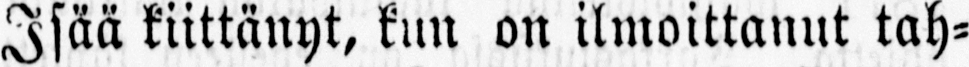Isää kiittänyt, kun on ilmoittanut tah-
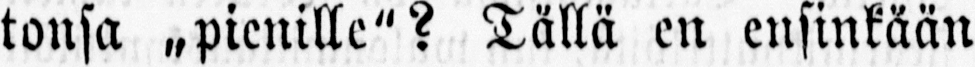tonsa ˶pienille"? Tällä en ensinkään
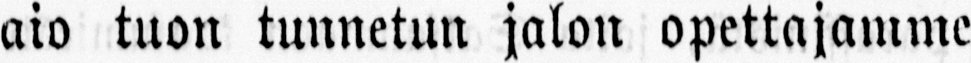aio tuon tunnetun jalon opettajamme
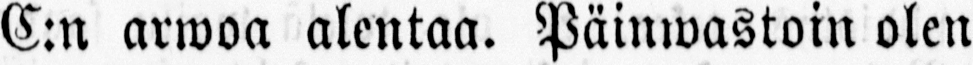C:n arwoa alentaa. Päinwastoin olen
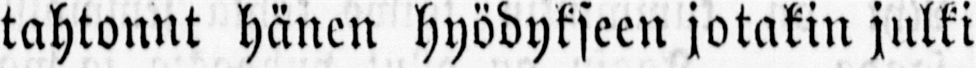tahtonnt hänen hyödykseen jotakin julki
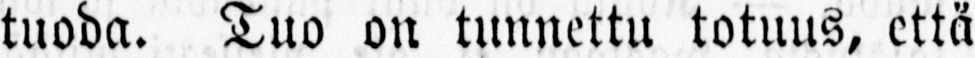tuoda. Tuo on tunnettu totuus, että
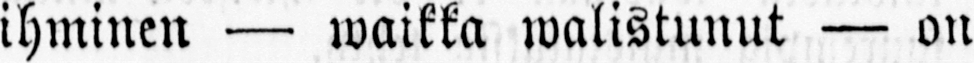ihminen — waikka walistunut — on
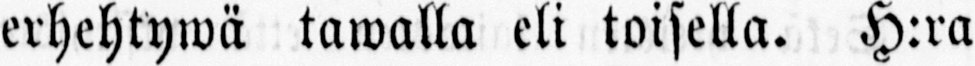erhehtywä tawalla eli toisella. H:ra
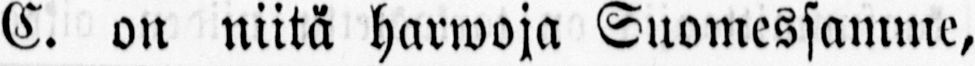E. on niitä Harwoja Suomessamme,
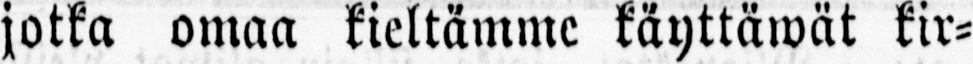jotka omaa kieltämme käyttäwät kir-
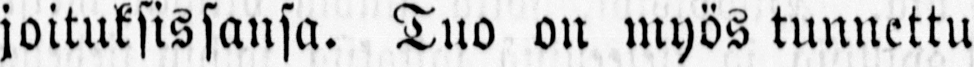joituksissansa. Tuo on myös tunnettu
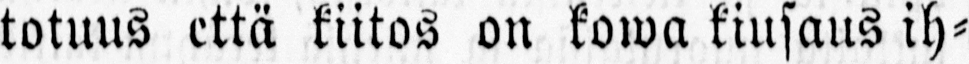totuus että kiitos on kowa kiusaus ih-
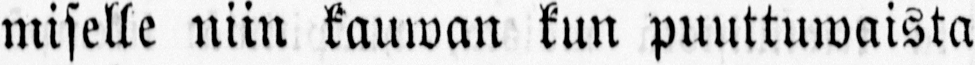miselle niin kauwan kun puuttuwaista
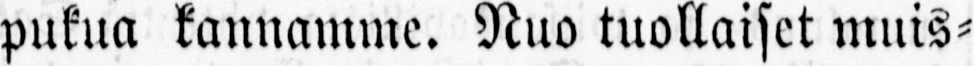pukua kannamme. Nuo tuollaiset muis-
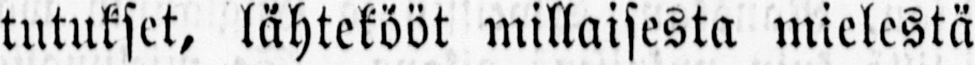tutukset, lähtekööt millaisesta mielestä
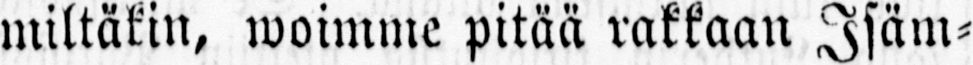miltäkin, woimme pitää rakkaan Isäm-
